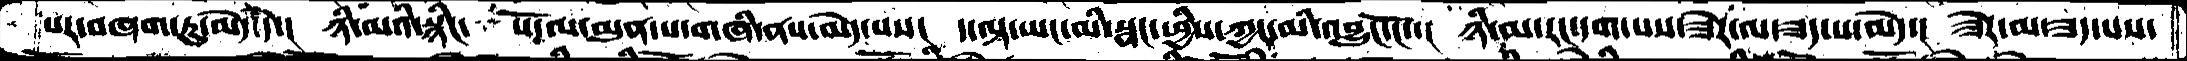པར་བཞག་ཏུ་མེད་དེ་།  ཉི་མའི་སྙིང་  སོ་ལ་མུན་པ་གཞི་ནས་མེད་པས།  ད་ལྟ་ཡང་མི་སྣང་ཕྱིས་ཀྱང་མི་འབྱུང་ངོ་་།  ཉི་མ་རང་དག་པས་ཟེར་ལ་ཟད་པ་མེད་།  ཟེར་མ་ཟད་པས་
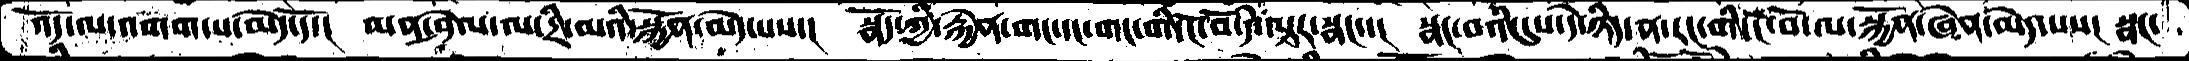འོད་ལ་འགག་པ་མེད་དོ་།  མན་ཤེལ་ལ་དྲི་མའི་སྐྱོན་མེད་པས་།  སྣོད་ཀྱི་རྐྱེན་གང་དང་གང་གི་ངོ་བོ་དེ་ལྟར་སྣང་་།  སྣང་བའི་དུས་དེ་ཉིད་ན་རང་གི་ངོ་བོ་ལ་སྐྱོན་ཞེན་མེད་པས།  སྣང་
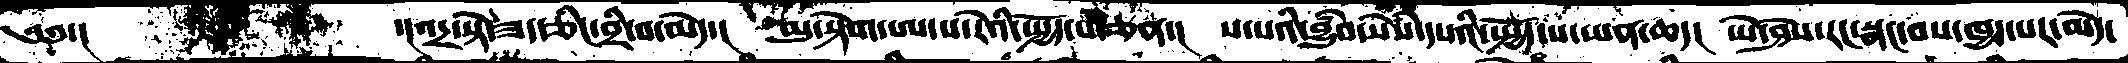༄༅་།       ་།འདྲ་སྟེ་ཟད་ཅིང་བྲི་བ་མེད་།  མུ་སྟེག་ཨ་ས་རེའི་སྤྱོད་པ་ཅན་།  ས་པའི་བྱུཾབ་སེཾས་དཔའི་སྤྱོད་པ་ཡན་ཆད།  ཡེ་ཤེས་རང་སྣང་བས་ཁྱད་པར་མེད་
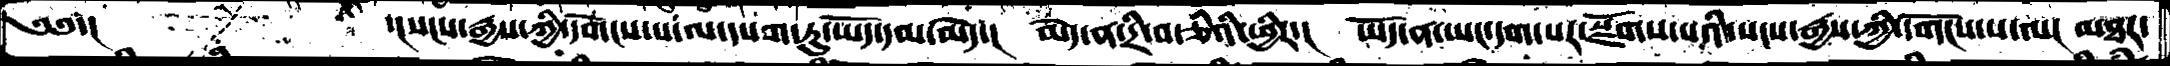༄༅་།        ་།སངས་རྒྱས་ཀྱི་དགོངས་པ་ལ་དཔག་ཏུ་ཡོད་དམ་མེད་།  མེད་ན་དྲི་བ་ཅིའི་ཕྱིར་།  ཡོད་ན་ཡང་དག་པར་སྫོགས་པའི་སངས་རྒྱས་ཀྱི་དགོངས་པ་ལ།  མཐར་
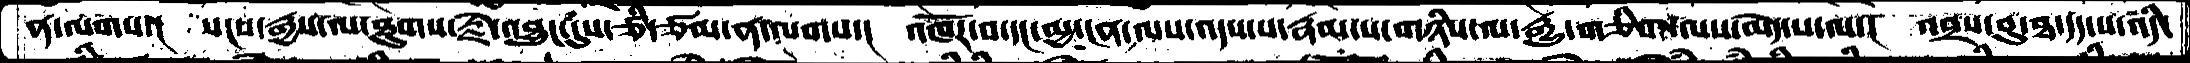ན་ལགས་།  སངས་རྒྱས་ལ་ཐུགས་རྗེ་འབྱུང་དུས་ཅི་ཙམ་ན་ལགས་།  འཁོར་བ་དང་མྱ་ངན་ལས་འདས་པ་རྣམ་པ་གཉིས་ལ་རྒྱུ་གཅིག་ལས་མེད་པ་ལ་།  འབྲས་བུ་ཐ་དད་པ་འདི་
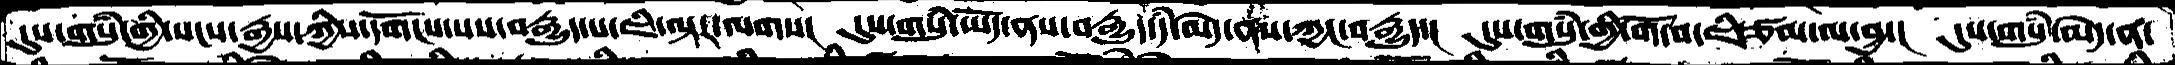དུས་གསུཾ་གྱི་སངས་རྒྱས་ཀྱིས་དགོངས་པས་བརྒྱུད་པ་ཇི་ལྟར་ལགས།  དུས་གསུཾ་ཡོད་ནས་བརྒྱུད་དཾ་མེད་ནས་ཀྱང་བརྒྱུད་།  དུས་གསུཾ་གྱི་གོ་བ་ཇི་ཙམ་ལ་བྱ་།  དུས་གསུཾ་མེད་ན་
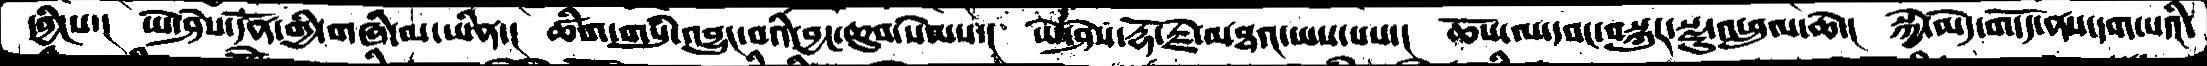དབྱིངས་།  ཡེ་ཤེས་དོན་གྱི་གཞི་མ་ཡིན་།  ཚིག་གསུཾ་འབྱུང་བའི་བྱང་ཆུབ་སེམས་།  ཡེ་ཤེས་རྡོ་རྗེ་མཐའ་ཡས་པས་།  ཆོས་ལ་དབང་བསྐུར་སྫུ་འཕྲུལ་ཆེ་།  སྐྱེ་མེད་གདོད་ནས་དག་པའི་
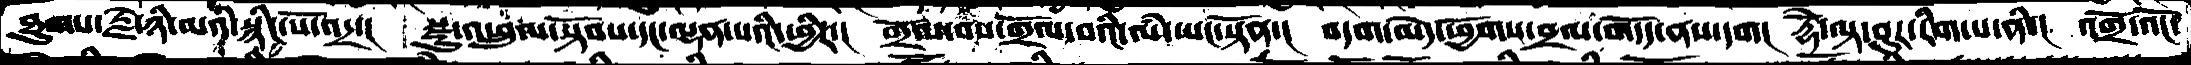ཐུགས་རྗེ་ཉི་མའི་སྙིང་པོ་འདྲ་།  སྫུ་འཕྲུལ་སྟོབས་དང་ལྡན་པའི་ཕྱིར་།  གྲོལ་བས་གྲོལ་བའི་ལཾ་ཡང་སྟོན་།  བདག་མེད་ཕྱོགས་བྲལ་གདོད་ནས་དག།  རྡོེ་ལྟ་བུར་རིག་པ་ནི་།  འགྲོ་འོང་
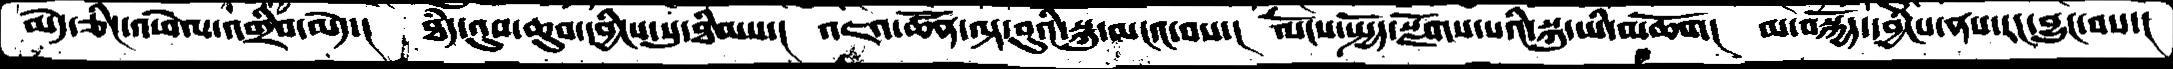མེད་ཅིང་འཕེལ་འགྲིབ་མེད་།  ཐཾད་འུབ་ཆུབ་དབྱིངས་སུ་ཐིམས་།  འཇའ་ཚོན་ལྟ་བུའི་སྐུ་མངའ་བས་།  ལོངས་སྤྱོད་སྫོགས་པའི་སྐུ་ཡི་མཆོག།  མི་བསྐྱོད་དབྱིངས་ནས་རང་བྱུང་བས་།
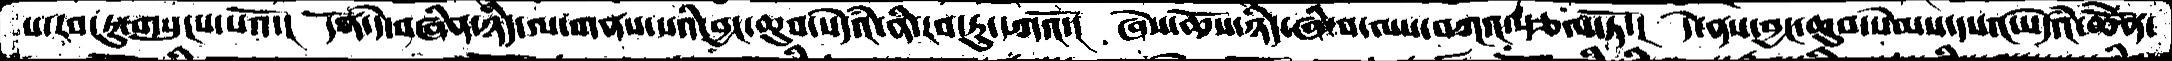པ་རབ་ཏུ་གསུངས་པའོ་།  དོན་དེ་བཞིན་ཉིད་ལ་གནས་པའི་བྱང་ཆུབ་སེདཾའ་ནི་རབ་ཏུ་དཀའོ་།  ཞེས་ཆོས་ཉིད་ཞི་བ་ལས་བཀའ་སྩལ་ཏོ་།  དེ་ནས་བྱང་ཆུབ་སེམས་དཔའ་སེདཾའ་ཆེནོ་
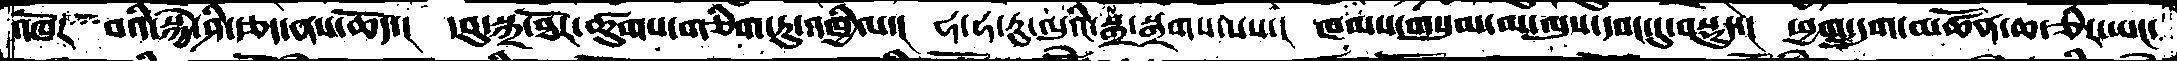འཁོར་  བའི་སྐྱེ་ཤི་རྩད་ནས་ཆོད་།  དབུ་སྐྲ་ཐོར་ཚུགས་གཅིག་ཏུ་འཁྱིལ་།  ཧ་ཧ་རུ་ལུའི་སྒྲ་སྒྲགས་པས་།  ཁམས་གསུམ་མ་ལུས་དབང་དུ་བསྡུད་།  ཕྱག་དྲུག་མཚོན་ཆ་ཅིར་ཡང་
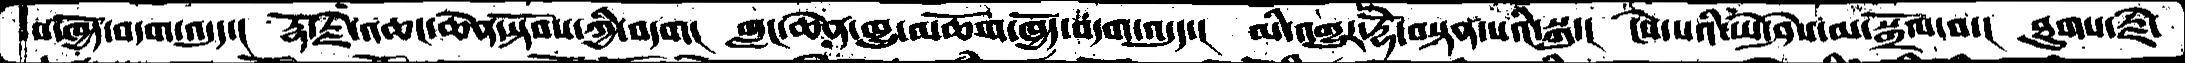པ་ཁྱོད་བདག་འདུད་།  རྡོ་རྗེ་འཆང་ཆེན་སྟོབས་ཀྱི་བདག།  གླང་ཆེན་ཁྱུ་མཆོག་ཁྱོད་བདག་འདུད་།  མི་འགྱུར་རྡོེ་བསྟན་པའི་སྐུ་།  ངེས་པའི་ཡེ་ཤེས་མ་སྒྲོལ་བ་།  ཐུགས་རྗེ་
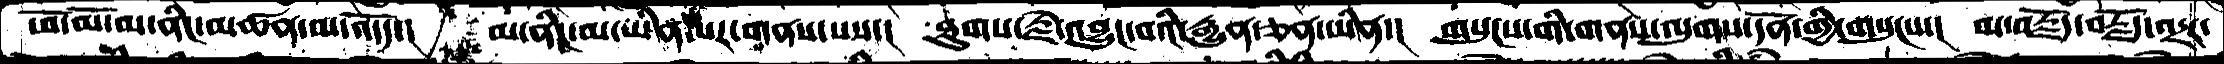ཕོ་མོ་མ་ནིང་མཚན་མ་འདོད་།   མ་ནིང་མ་ཡིན་པར་གནས་པས་།  ཐུགས་རྗེ་འབྱུང་བའི་རྒྱུན་ཅན་ཡིན་།  གསུངས་གི་གནས་ལུགས་དོན་གྱི་གསུངས་།  མ་བརྗོད་བརྗོད་འདྲར་
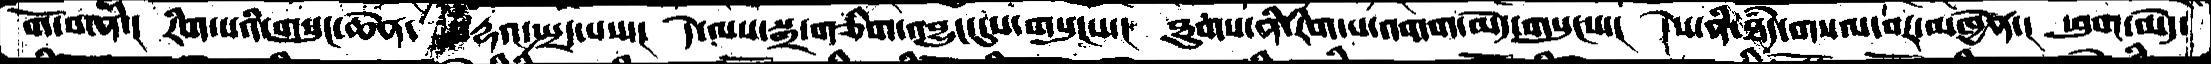གོ་བ་ནི་།  རིག་པའི་གསུང་ཆེན་ བརྡའ་སྤྲད་པས།  དེ་ལས་སྒྲ་གཅིག་འབྱུང་དུས་གསུངས་།  ཐུགས་ནི་རིག་པ་འགག་མེད་གསུངས།  དེས་ནི་ཐཾད་གསལ་བར་མཁྱེན་།  ཕུག་མེད་
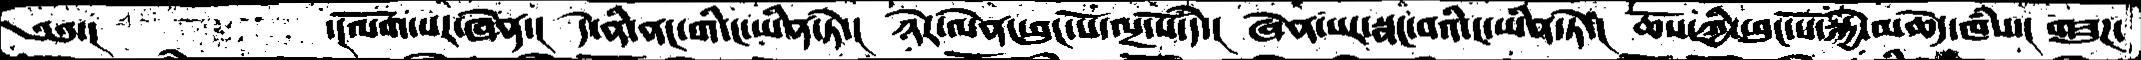༄༅་།          ་།ལོག་པར་ཞེན་།  དེ་ནི་ནང་གི་ང་ཡིན་ཏེ་།  ཉེར་ལེན་ཕུང་པོ་ལྔ་པོ་དེ་།  ཞེན་པར་སྣང་བའི་ང་ཡིན་ཏེ་།  ཆོས་ཀྱི་ཕུང་པོ་སྐྱེ་མཆེད་ཁཾས་།  གཟུཌ་
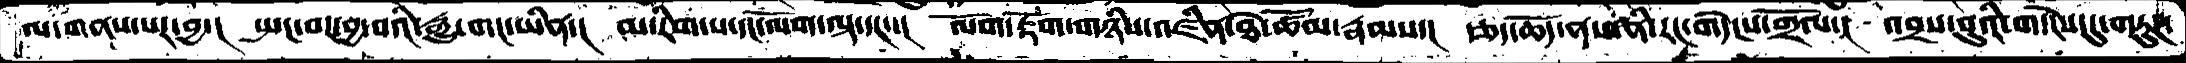ལ་གནས་པར་བྱ་།  སྤང་བར་བྱ་བའི་རྒྱུ་གང་ཡིན་།  མ་རིག་པ་དང་ལོག་ལྟ་དང་་།  ལོག་རྟོག་གཉིས་འཛིན་ཐེ་ཚོམ་རྣམས་།  རྩད་ཆོད་ནས་ནི་རང་གདེངས་གྲོལ་།  འབྲས་བུའི་གདེངས་དུ་གཏུཌ་
